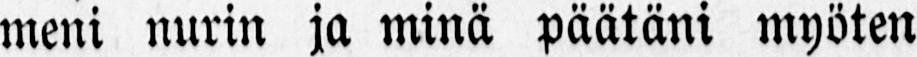meni nurin ja minä päätäni myöten
